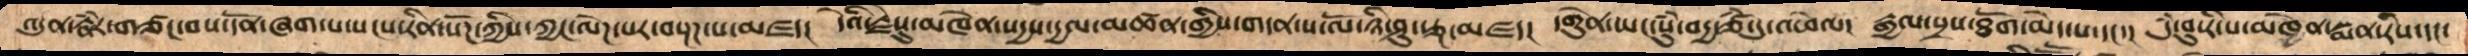འདུན་རྣཾར་གཙང་བས་དོན་ཞག་པ་སངས་རིན་སོཌ་ཀྱིས་ཀྱང་ལེཌ་པར་བསྔཌ་པ་མཛད།   དེའི་རྗེསུ་མཁེན་སདྱས་དྱལ་མཚན་གྱིས་གདན་ས་ལོ་ཉི་ཤུ་རྩྔ་མཛད།   དགེུན་ཡང་སུཾ་བདྱ་ཙཾ་དུ་འཕེལ།  རྒྱལ་སྲས་ཐོག་མེད་པ་དང་།    དུཾ་བུ་རི་པ་མཁེན་སྨན་རིས་དང་
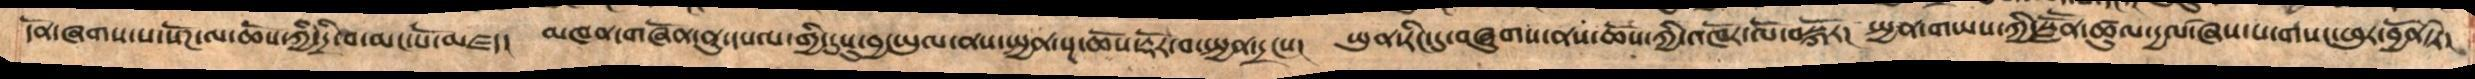དོན་ཞགས་པ་སོཌ་ལ་ཆོས་ཀྱི་དྲི་བ་མང་པོ་མཛད།   མཁན་གཞོན་ནུ་དཔལ་གྱི་དུསུ་བྱ་ཡུལ་ནས་སྤྱན་སྔ་ཆོས་རྡོར་བ་སྤྱན་དྲངས།   ཡུན་རིང་དུ་བཞུགས་ནས་ཆོས་ཀྱི་འཁོར་ལོ་བསྐོར།   སྤྱན་གཡས་ཀྱི་སླཽན་ཚུལ་དྱལ་ཞེས་པ་གསང་ཕུར་བྱོན་ཏེ།
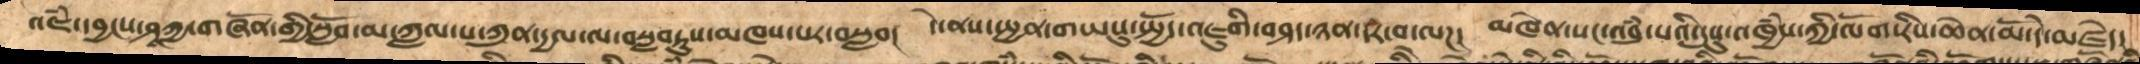འཇཾ་དབྱངས་ཤཱཀྱ་གཞོན་གྱི་སློབ་མ་ཀླལ་པ་ཀུན་དྱལ་ལ་བསླབཏུས་མཁས་པར་བསླབ།   དེ་ནས་སྤྱན་གཡསུ་སྤྱོད་འཇུགི་བཤད་ཉན་དར་བ་ལཌ།   མཁེན་སང་འབུཾ་པའི་དུསུ་འཁྱཾས་ཀྱི་ལོག་རིས་ཆེན་མོ་དེ་མཛདེ་
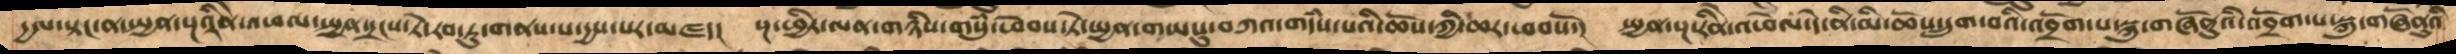དྱལ་སྟང་ན་སྤྱན་སྔ་རིནེ་འཕལ་སྤྱན་དྲངས་ཏེ་རབ་ཏུ་གནས་པ་དྱས་པར་མཛད།   སྔ་ཕྱིར་ལན་གཉིས་གསུཾ་ཕེབས་ཏེ་སྤྱན་གཡསུ་བཀའ་གདཾས་པའི་ཆོས་ཀྱི་ཆར་ཕབསོ་།   སྤྱན་སྔ་རིནེ་འཕེལ་དེ་ནི་མི་ཆོས་དྲུག་བའི་འབྲོག་པ་སྐུ་གཞོནུའི་འབྲོག་པ་སྐུ་གཞོནུའི
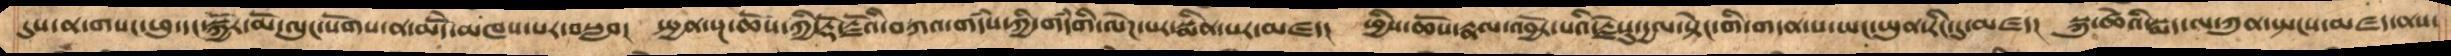དུས་ན་གསང་ཕུ་དང་སྐྱོར་མོ་ལུང་སོགས་ན་མེདོ་མཁས་པར་བསླབ།   སྤྱན་སྔ་ཆོས་ཀྱི་རྡོ་རྗེའི་བཀའ་གདཾས་ཀྱི་གདཾགི་ལེཌ་པར་སྨིན་པར་མཛད།  ཕྱིས་ཆོས་རྣལ་འབྱོར་པའི་རྗེསུ་དྱལ་སྟེང་གི་གདན་ས་ཡང་ཡུན་རིང་དུ་མཛད།   སྐུ་ཚེའི་སྨད་ལ་ཀུན་སྤངས་མཛད་ནས་
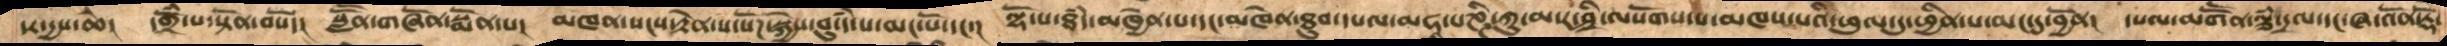དར་དྱས་ཆེ།   དགྲོཾ་པ་སྟོན་བསོད།   སླཽན་གཞོན་སྨོན་པ།   མཁན་སངས་རྟེན་ས་སོཌ་སྐྱེས་བུ་དཾ་པ་མང་པོ་དང་།  ལྷོ་པ་ཐཾད་མཁྱེན་པ་དང་མཁེན་ཐུབ་དཔལ་མཧ་པཎྜི་ཀུ་མ་ར་ཤྲི་ལསོགས་པ་མཁས་པའི་ཕུལ་དུ་ཕྱིན་པ་མང་དུ་བྱོན།  དཔལ་མགཽན་ལྕཾ་དྲལ་དང་ཞ་འོན་རྡོ་
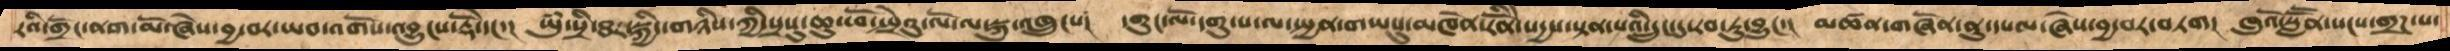རའི་གྲོང་ནག་མོ་ཞེས་བྱ་བར་ཡབ་འགོས་འབྱུངས་རྡོེ་དང་།    ཡུཾ་སྲི་ཐར་སྐྱིད་གཉིས་ཀྱི་སྲསུ་ཆུ་ཕོ་སྤྲེའུ་ལོ་ལ་སྐུ་འཁྲུངས།   དགུང་ལོ་དགུ་པ་ལ་སྤྱན་གཡསུ་མཁེན་རིནོེ་སདྱས་སྟན་པའི་དྲུང་དུ་རབ་ཏུ་བྱུང་།   མཚན་གཞོན་ནུ་དཔལ་ཞེས་བྱ་བར་བཏག།   ཁུའོ་སླཽན་སངས་གྲཌ་པ་
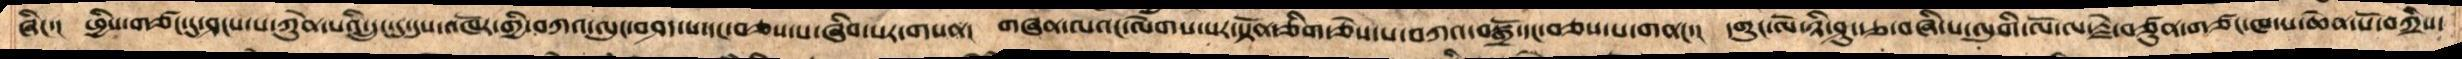ཞིང་།    ཕྱིས་གཙང་དུ་ཤངས་པ་ཀེུན་པའི་དྲུང་དུ་དུས་འཁོར་གྱི་བཀའ་ལུང་བཤད་པ་དང་བཅས་པ་ཞིབ་པར་གསན།  གཞན་ལའང་ལེགས་པར་སྟོན་ཅིག་ཅེས་པ་བཀའ་བསྒྲོ་དང་བཅས་པ་གནང་།   དགུང་ལོ་ཉི་ཤུ་རྩ་བཞི་པ་ལུགི་ལོ་ལ་རྗེ་བཙུན་གཙང་ཁ་པ་ཆེན་པོ་བཀྲིས་
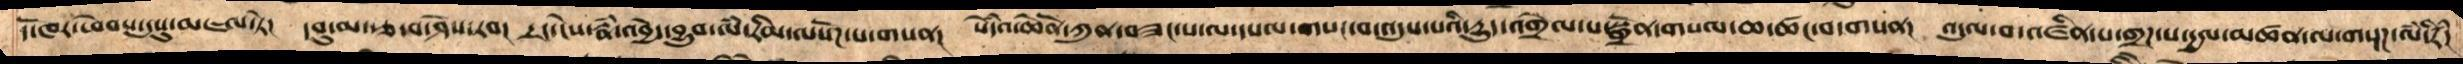དོ་ཁར་ཕེབས་དུསུ་མཇལ་ཏེ།  དབུ་མ་རྩ་བ་ཤེས་རབ།  དྲང་ངེས་རྣཾ་འབྱེད་བྱུབ་ལཾ་རིམ་ལསོཌ་པ་གསན།   སེཾདའ་ཆེནོ་ཀུན་བཟང་ས་ལ་དཔལ་གསང་བ་འདུས་པའི་དྱུད་འགྲེལ་པ་སྒྲོན་གསལ་ཆ་ཚང་བ་གསན།   འདུལ་བ་འཛིན་པ་གྲཌ་པ་དྱལ་མཚན་ལ་གསྔཌ་ལཾ་རིཾ།
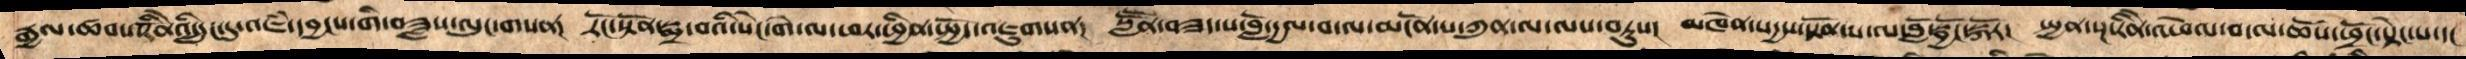རྒྱལ་ཚབ་རིནོེའི་དྲུང་དུ་འཇཾ་དབྱངས་གི་བཟླས་ལུང་གསན།    རོང་སྟོན་སྨྲ་བའི་སེང་གེ་ལ་ཕར་ཕྱིན་སྤྱོད་འཇུགསན།  སླཽན་བཟད་པ་བློ་དྱལ་བ་ལ་མངོན་པ་ཀུན་ལ་ལས་བཏུས།   མཁེན་སདྱས་སྟོན་པ་ལ་བློ་སྦྱོང་སྐོར།  སྤྱན་སྔ་རིནེ་འཕེལ་བ་ལ་ཆོས་ཕྲོང་སྟེང་པ་དང
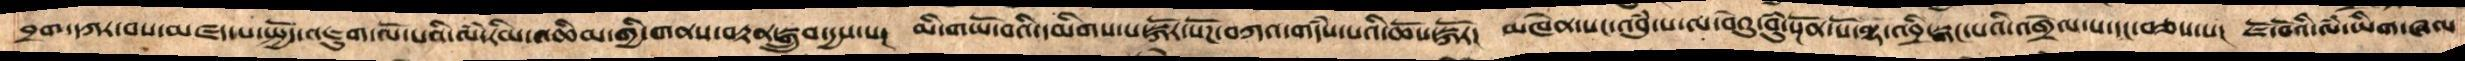བྲག་དཀར་བས་མཛད་པ་སྤྱོད་འཇུག་ལོ་པའི་ལཾ་རིམ་འཆིམ་གྱི་གནས་བརྟན་སྒྲུབ་དྱས་པ།    མི་གཡོ་བའི་དམིགས་པ་སྐོར་སོཌ་བཀའ་གདཾས་པའི་ཆོས་སྐོར།  མཁེན་སང་འབུཾ་པ་ལ་བེའུ་བུཾ་སྔོན་པོ་ལྷ་འབྲི་སྒང་པའི་འགྲེལ་པ་དང་བཅས་པ།   ཇོ་བོའི་ལཾ་ཡིག་ཞལ
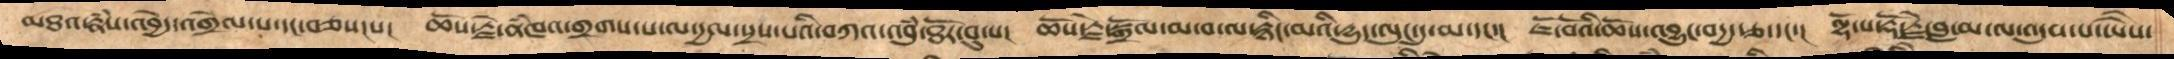མཐའ་རྣཾས་འབྱེད་འགྲེལ་པ་དང་བཅས།པ།  ཆོས་རྗེ་ནཾཁའ་གྲགས་པ་ལ་དྱལ་སྲས་པའི་བཀའ་འབུཾ་ཐོར་བུ་པ།   ཆོས་རྗེ་སྒྲོལ་མ་བ་ལ་རྙིང་མའི་དྱུད་ལུང་དུ་མ་དང་།  ཇོ་བོའི་ཆོས་འབྱུང་བདྱ་རྩ་དང་།  ལྷོ་པ་རྡོ་རྗེ་བླ་མ་ལ་འདུས་པ་ཡཻས་
